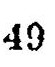49
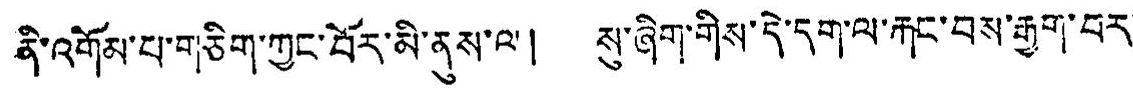ནི་འགོམ་པ་གཅིག་ཀྱང་བོར་མི་ནུས་ལ། སུ་ཞིག་གིས་དེ་དག་ལ་རྐང་བས་རྒྱུག་པར་
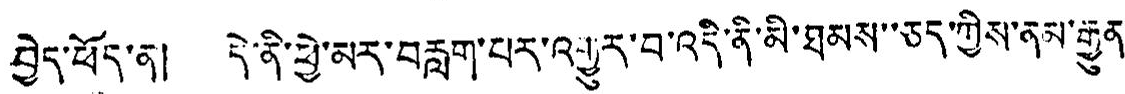བྱེད་ཕོད་ན། དེ་ནི་ཕྱེ་མར་བརླག་པར་འགྱུར་བ་འདི་ནི་མི་ཐམས་་ཅད་ཀྱིས་ནམ་རྒྱུན་
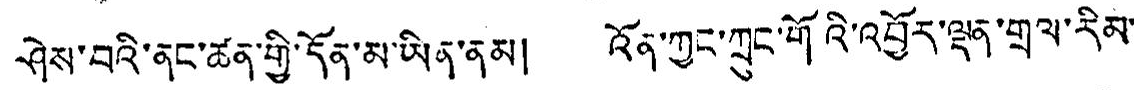ཤེས་བའི་ནང་ཚན་གྱི་དོན་མ་ཡིན་ནམ། འོན་ཀྱང་ཀྲུང་གོའི་འབྱོར་ལྡན་གྲལ་རིམ་
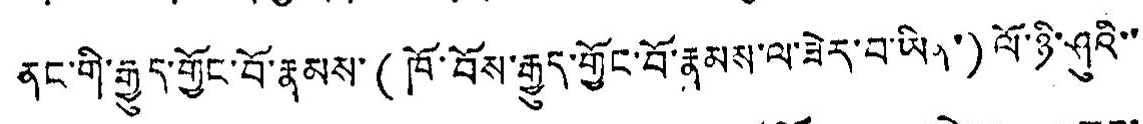ནང་གི་རྒྱུད་གྱོང་བོ་རྣམས་(ཁོ་བོས་རྒྱུད་གྱོང་བོ་རྣམས་ལ་ཟེར་བ་ཡིན་)ལོ་ཉི་ཤུའི་་
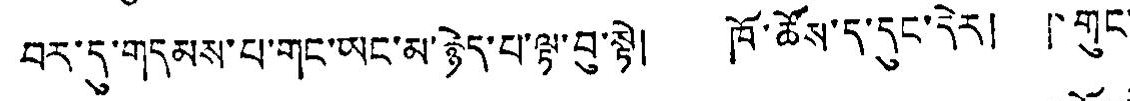བར་དུ་གདམས་པ་གང་ཡང་མ་རྙེད་པ་ལྟ་བུ་སྟེ། ཁོ་ཚོས་ད་དུང་དེར། 「གུང་
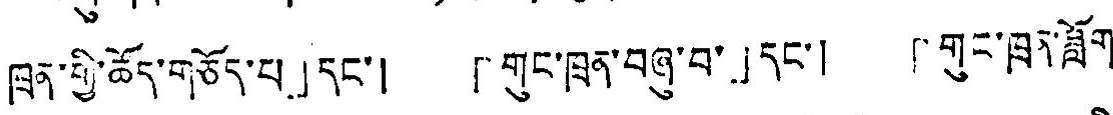ཁྲན་གྱི་ཚོད་གཅོད་པ」དང་། 「གུང་ཁྲན་བཞུ་བ་」དང་། 「གུང་ཁྲན་ཟློག་
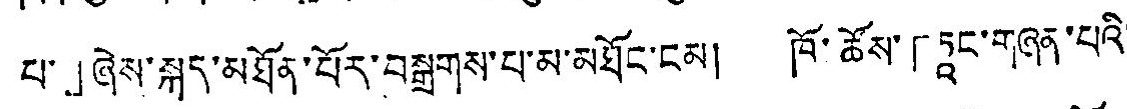པ་」ཞེས་སྐད་མཐོན་པོར་བསྒྲགས་པ་མ་མཐོང་ངམ། ཁོ་ཚོས་「ཏཱང་གཞན་པའི་
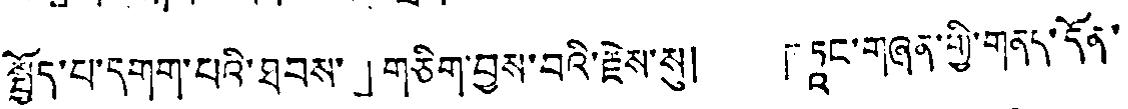སྤྱོད་པ་དགག་པའི་ཐབས་」གཅིག་བྱས་བའི་རྗེས་སུ། 「ཏཱང་གཞན་གྱི་གནད་དོན་
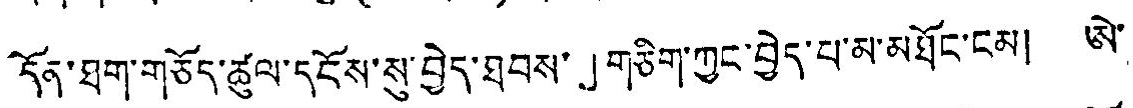དོན་ཐག་གཅོད་ཚུལ་དངོས་སུ་བྱེད་ཐབས་」གཅིག་ཀྱང་བྱེད་པ་མ་མཐོང་དམ། ཨེ་
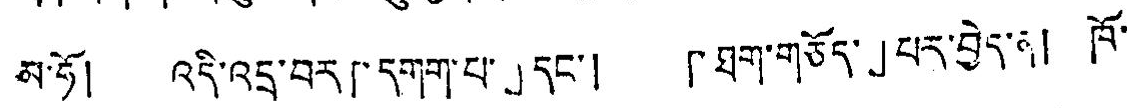མ་ཧོ། འདི་འདྲ་བར「དགག་པ་」དང་། 「ཐག་གཅོད་」པར་བྱེད་ན། ཁོ་
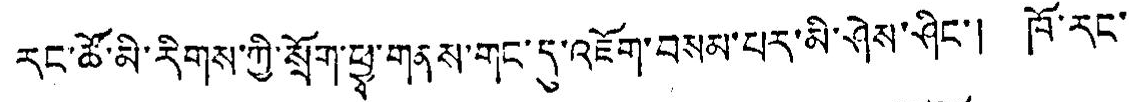རང་ཚོ་མི་རིགས་ཀྱི་སྲོག་ཕྱྭ་གནས་གང་དུ་འཇོག་བསམ་པར་མི་ཤེས་ཤིང་། ཁོ་རང་
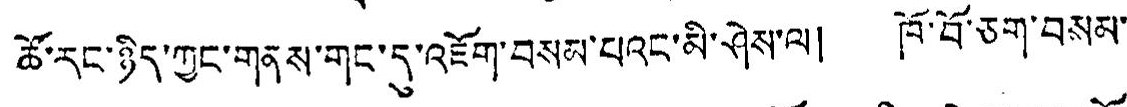ཚོ་རང་ཉིད་ཀྱང་གནས་གང་དུ་འཇོག་བསམ་པའང་མི་ཤེས་ལ། ཁོ་བོ་ཅག་བསམ་
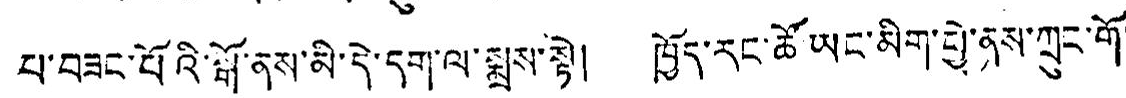པ་བཟང་པོའི་སྒོ་ནས་མི་དེ་དག་ལ་སྨྲས་སྟེ། ཁྱོད་རང་ཚོ་ཡང་མིག་ཕྱེ་ནས་ཀྲུང་གོ་
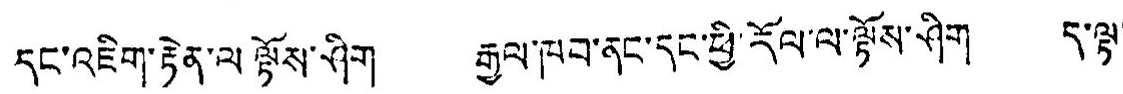དང་འཇིག་རྟེན་ལ་ལྟོས་ཤིག རྒྱལ་ཁབ་ནང་དང་ཕྱི་རོལ་ལ་ལྟོས་ཤིག ད་ལྟ་
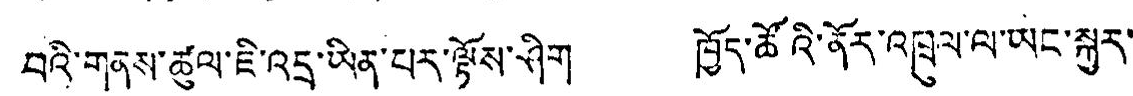བའི་གནས་ཚུལ་ཇི་འདྲ་ཡིན་པར་ལྟོས་ཤིག ཁྱོད་ཚོའི་ནོར་འཁྲུལ་ལ་ཡང་སྐར་
